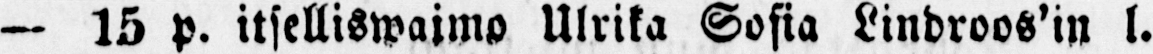— 15 p. itselliswaimo Ulrika Sofia Lindroos’in l.
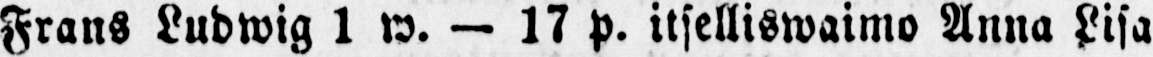Frans Ludwig 1 w. — 17 p. itselliswaimo Anna Lisa
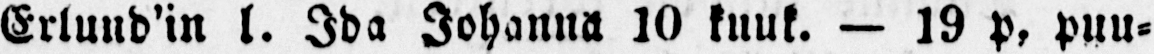Erlund’in l. Ida Johanna 10 kuuk. — 19 p, puu-
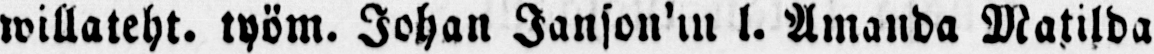willateht. työm. Johan Janson’in l. Amanda Matilda
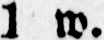1 w.
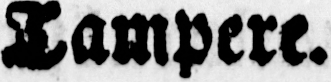Tampere.
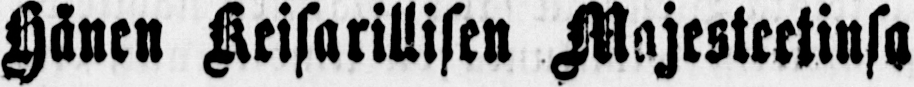Hänen Keisarillisen Majesteetinsa
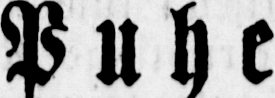Puhe
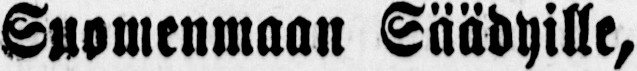Suomenmaan Säädyille,
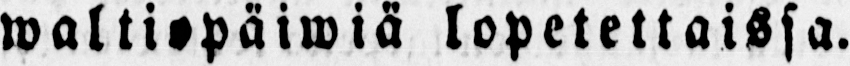waltiopäiwiä lopetettaissa.
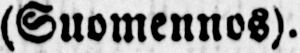(Suomennos).
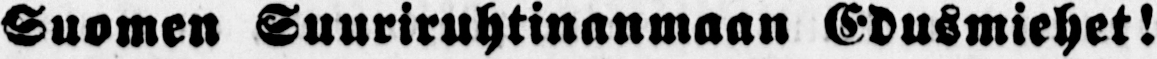Suomen Suuriruhtinanmaan Edusmiehet!
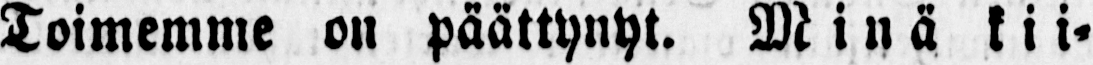Toimemme on päättynyt. Minä kii-
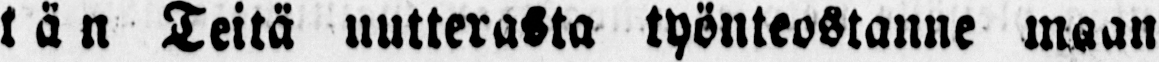tän Teitä uutterasta työnteostanne maan
